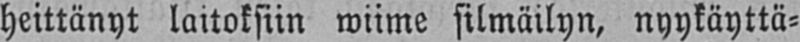heittänyt laitoksiin wiime silmäilyn, nyykäyttä-
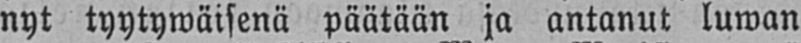nyt tyytywäisenä päätään ja antanut luwan
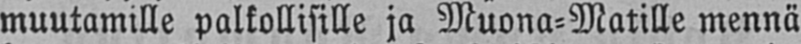muutamille palkollisille ja Muona-Matille mennä
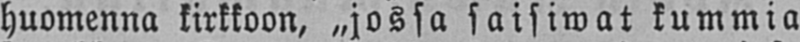huomenna kirkkoon, „jossa saisiwat kummia
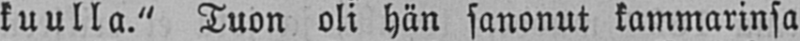kuulla." Tuon oli hän sanonut kammarinsa
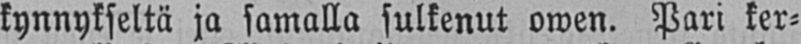kynnykseltä ja samalla sulkenut owen. Pari ker-
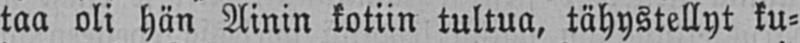taa oli hän Ainin kotiin tultua, tähystellyt ku-
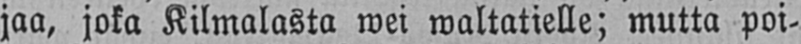jaa, joka Kilmalasta wei waltatielle; mutta poi-
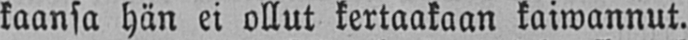kaansa hän ei ollut kertaakaan kaiwannut.
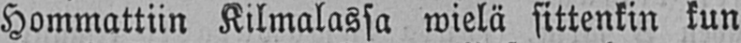Hommattiin Kilmalassa wielä sittenkin kun
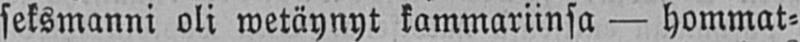seksmanni oli wetäynyt kammariinsa — hommat-
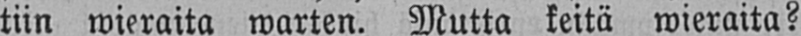tiin wieraita warten. Mutta keitä wieraita?
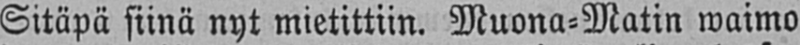Sitäpä siinä nyt mietittiin. Muona-Matin waimo
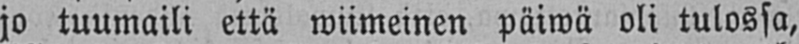jo tuumaili että wiimeinen päiwä oli tulossa,
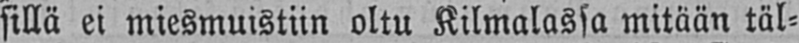sillä ei miesmuistiin oltu Kilmalassa mitään täl-
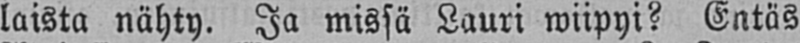laista nähty. Ja missä Lauri wiipyi? Entäs
